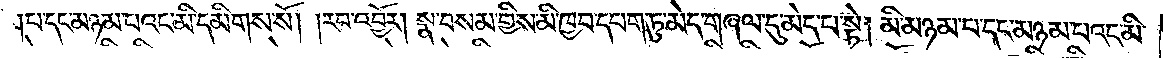པ་དང་མཉམ་པའང་མི་དམིགས་སོ། རབ་འབྱོར། སྣ་བསམ་གྱིས་མི་ཁྱབ་དཔག་ཏུ་མེད་གཞལ་དུ་མེད་པ་སྟེ། མི་མཉམ་པ་དང་མཉམ་པའང་མི་
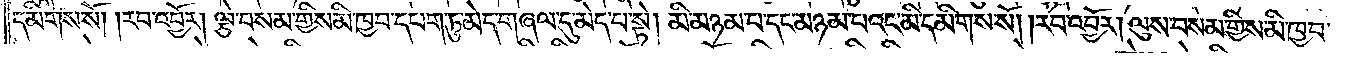དམིགས་སོ། །རབ་འབྱོར། ལྕེ་བསམ་གྱིས་མི་ཁྱབ་དཔག་ཏུ་མེད་གཞལ་དུ་མེད་པ་སྟེ། མི་མཉམ་པ་དང་མཉམ་པའང་མི་དམིགས་སོ། །རབ་འབྱོར། ལུས་བསམ་གྱིས་མི་ཁྱབ་
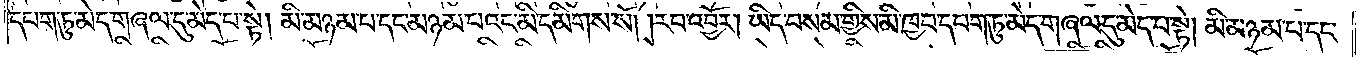དཔག་ཏུ་མེད་གཞལ་དུ་མེད་པ་སྟེ། མི་མཉམ་པ་དང་མཉམ་པའང་མི་དམིགས་སོ། །རབ་འབྱོར། ཡིད་བསམ་གྱིས་མི་ཁྱབ་དཔག་ཏུ་མེད་གཞལ་དུ་མེད་པ་སྟེ། མི་མཉམ་པ་དང་
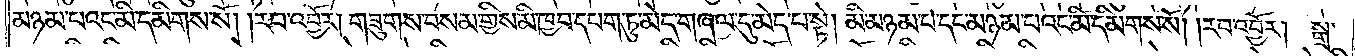མཉམ་པའང་མི་དམིགས་སོ། །རབ་འབྱོར། གཟུགས་བསམ་གྱིས་མི་ཁྱབ་དཔག་ཏུ་མེད་གཞལ་དུ་མེད་པ་སྟེ། མི་མཉམ་པ་དང་མཉམ་པའང་མི་དམིགས་སོ། །རབ་འབྱོར། སྒྲ་
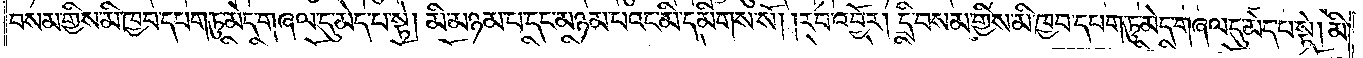བསམ་གྱིས་མི་ཁྱབ་དཔག་ཏུ་མེད་གཞལ་དུ་མེད་པ་སྟེ། མི་མཉམ་པ་དང་མཉམ་པའང་མི་དམིགས་སོ། །རབ་འབྱོར། དྲི་བསམ་གྱིས་མི་ཁྱབ་དཔག་ཏུ་མེད་གཞལ་དུ་མེད་པ་སྟེ། མི་
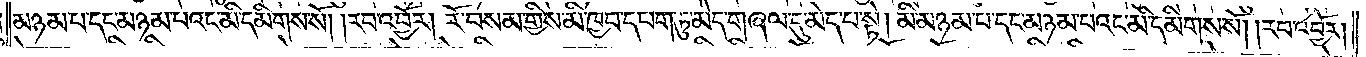མཉམ་པ་དང་མཉམ་པའང་མི་དམིགས་སོ། །རབ་འབྱོར། རོ་བསམ་གྱིས་མི་ཁྱབ་དཔག་ཏུ་མེད་གཞལ་དུ་མེད་པ་སྟེ། མི་མཉམ་པ་དང་མཉམ་པའང་མི་དམིགས་སོ། །རབ་འབྱོར།
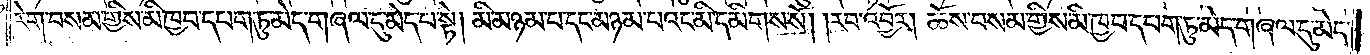རེག་བསམ་གྱིས་མི་ཁྱབ་དཔག་ཏུ་མེད་གཞལ་དུ་མེད་པ་སྟེ། མི་མཉམ་པ་དང་མཉམ་པའང་མི་དམིགས་སོ། །རབ་འབྱོར། ཆོས་བསམ་གྱིས་མི་ཁྱབ་དཔག་ཏུ་མེད་གཞལ་དུ་མེད་
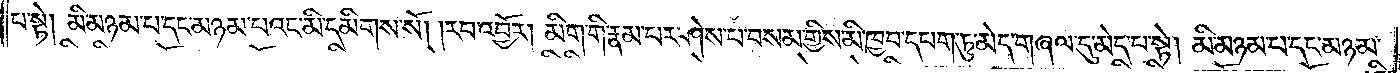པ་སྟེ། མི་མཉམ་པ་དང་མཉམ་པའང་མི་དམིགས་སོ། །རབ་འབྱོར། མིག་གི་རྣམ་པར་ཤེས་པ་བསམ་གྱིས་མི་ཁྱབ་དཔག་ཏུ་མེད་གཞལ་དུ་མེད་པ་སྟེ། མི་མཉམ་པ་དང་མཉམ་
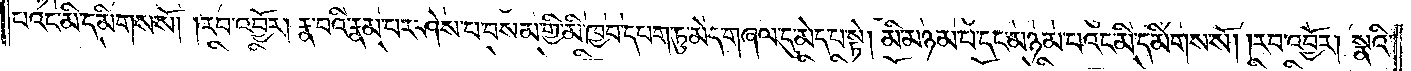པའང་མི་དམིགས་སོ། །རབ་འབྱོར། རྣ་བའི་རྣམ་པར་ཤེས་པ་བསམ་གྱིས་མི་ཁྱབ་དཔག་ཏུ་མེད་གཞལ་དུ་མེད་པ་སྟེ། མི་མཉམ་པ་དང་མཉམ་པའང་མི་དམིགས་སོ། །རབ་འབྱོར། སྣའི་
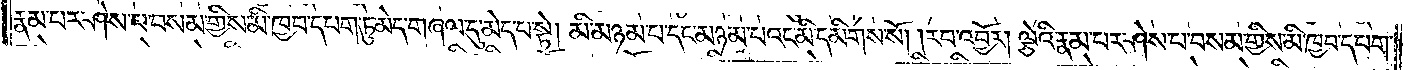རྣམ་པར་ཤེས་པ་བསམ་གྱིས་མི་ཁྱབ་དཔག་ཏུ་མེད་གཞལ་དུ་མེད་པ་སྟེ། མི་མཉམ་པ་དང་མཉམ་པའང་མི་དམིགས་སོ། །རབ་འབྱོར། ལྕེའི་རྣམ་པར་ཤེས་པ་བསམ་གྱིས་མི་ཁྱབ་དཔག་
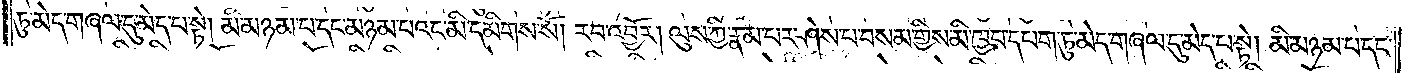ཏུ་མེད་གཞལ་དུ་མེད་པ་སྟེ། མི་མཉམ་པ་དང་མཉམ་པའང་མི་དམིགས་སོ། །རབ་འབྱོར། ལུས་ཀྱི་རྣམ་པར་ཤེས་པ་བསམ་གྱིས་མི་ཁྱབ་དཔག་ཏུ་མེད་གཞལ་དུ་མེད་པ་སྟེ། མི་མཉམ་པ་དང་
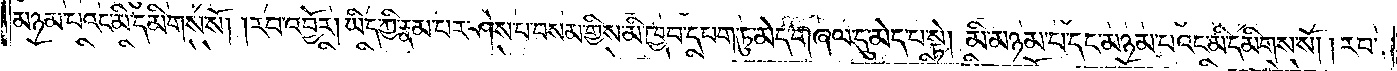མཉམ་པའང་མི་དམིགས་སོ། །རབ་འབྱོར། ཡིད་ཀྱི་རྣམ་པར་ཤེས་པ་བསམ་གྱིས་མི་ཁྱབ་དཔག་ཏུ་མེད་གཞལ་དུ་མེད་པ་སྟེ། མི་མཉམ་པ་དང་མཉམ་པའང་མི་དམིགས་སོ། །རབ་
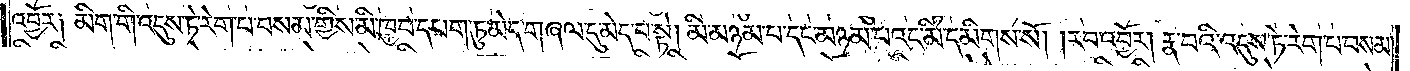འབྱོར༑ མིག་གི་འདུས་ཏེ་རེག་པ་བསམ་གྱིས་མི་ཁྱབ་དཔག་ཏུ་མེད་གཞལ་དུ་མེད་པ་སྟེ། མི་མཉམ་པ་དང་མཉམ་པའང་མི་དམིགས་སོ། །རབ་འབྱོར། རྣ་བའི་འདུས་ཏེ་རེག་པ་བསམ་
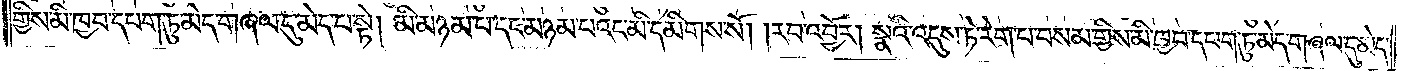གྱིས་མི་ཁྱབ་དཔག་ཏུ་མེད་གཞལ་དུ་མེད་པ་སྟེ། མི་མཉམ་པ་དང་མཉམ་བའང་མི་དམིགས་སོ། །རབ་འབྱོར། སྣའི་འདུས་ཏེ་རེག་པ་བསམ་གྱིས་མི་ཁྱབ་དཔག་ཏུ་མེད་གཞལ་དུ་མེད་
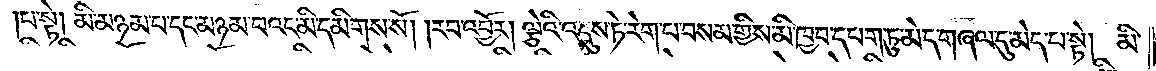པ་སྟེ། མི་མཉམ་པ་དང་མཉམ་པའང་མི་དམིགས་སོ། །རབ་འབྱོར། ལྕེའི་འདུས་ཏེ་རེག་པ་བསམ་གྱིས་མི་ཁྱབ་དཔག་ཏུ་མེད་གཞལ་དུ་མེད་པ་སྟེ། མི་
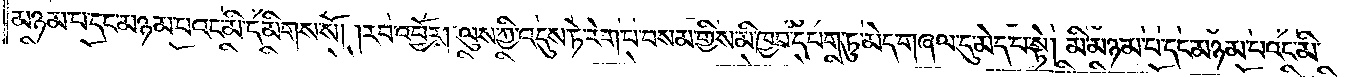མཉམ་པ་དང་མཉམ་པའང་མི་དམིགས་སོ། །རབ་འབྱོར། ལུས་ཀྱི་འདུས་ཏེ་རེག་པ་བསམ་གྱིས་མི་ཁྱབ་དཔག་ཏུ་མེད་གཞལ་དུ་མེད་པ་སྟེ། མི་མཉམ་པ་དང་མཉམ་པའང་མི་
